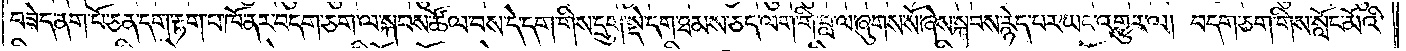བཟེད་ནག་པོ་ཅན་དག་རྟག་པ་ཁོ་ནར་བདག་ཅག་ལ་སྐབས་ཚོལ་བས་དེ་དག་གིས་དྲུག་སྡེ་དག་ཐམས་ཅད་ལག་གི་བླ་ལ་ཞུགས་སོ་ཞེས་སྐབས་རྙེད་པར་ཡང་འགྱུར་ལ། བདག་ཅག་གིས་སློང་མོའི་
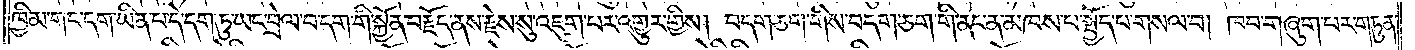ཁྱིམ་གང་དག་ཡིན་པ་དེ་དག་ཏུ་ཡང་བྲེལ་བ་དག་གི་སྐྱོན་བརྗོད་ནས་རྗེས་སུ་འཇུག་པར་འགྱུར་གྱིས། བདག་ཅག་གིས་བདག་ཅག་གི་ནང་ན་མཁས་པ་སྤྱོད་པ་གསལ་བ། ཁབ་གཞུག་པར་གཏུན་
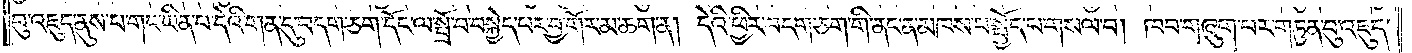བུ་འཇུད་ནུས་པ་གང་ཡིན་པ་དེའི་གན་དུ་བདག་ཅག་དོང་ལ་སྤྲོ་བ་བསྐྱེད་པར་བྱ་གོར་མ་ཆག་ན། དེའི་ཕྱིར་བདག་ཅག་གི་ནང་ན་མཁས་པ་སྤྱོད་པ་གསལ་བ། ཁབ་གཞུག་པར་གཏུན་བུ་འཇུད་
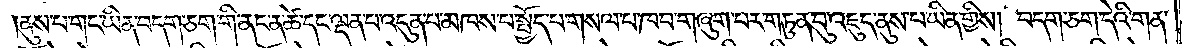ནུས་པ་གང་ཡིན་བདག་ཅག་གི་ནང་ན་ཚེ་དང་ལྡན་པ་འདུན་པ་མཁས་པ་སྤྱོད་པ་གསལ་པ་ཁབ་གཞུག་པར་གཏུན་བུ་འཇུད་ནུས་པ་ཡིན་གྱིས། བདག་ཅག་དེའི་གན་
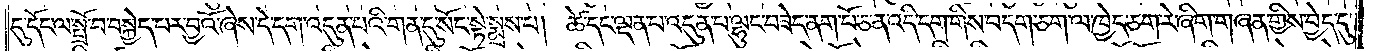དུ་དོང་ལ་སྤྲོ་བ་བསྐྱེད་པར་བྱའོ་ཞེས་དེ་དག་འདུན་པའི་གན་དུ་སོང་སྟེ་སྨྲས་པ། ཚེ་དང་ལྡན་པ་འདུན་པ་ལྷུང་བཟེད་ནག་པོ་ཅན་འདི་དག་གིས་བདག་ཅག་ལ་ཁྱེད་ཅག་རེ་ཞིག་གཞན་གྱིས་བྱེད་དུ་
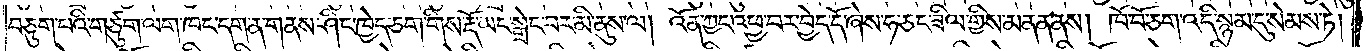བཅུག་པའི་གཙུག་ལག་ཁང་དག་ན་གནས་ཤིང་ཁྱེད་ཅག་གིས་རྡོ་ཡང་སྒྲེང་བར་མི་ནུས་ལ། འོན་ཀྱང་འཕྱ་བར་བྱེད་དོ་ཞེས་ཧ་ཅང་ཟིལ་གྱིས་མནན་ནས། ཁོ་བོ་ཅག་འདི་སྙམ་དུ་སེམས་ཏེ།
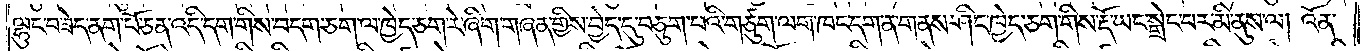ལྷུང་བཟེད་ནག་པོ་ཅན་འདི་དག་གིས་བདག་ཅག་ལ་ཁྱེད་ཅག་རེ་ཞིག་གཞན་གྱིས་བྱེད་དུ་བཅུག་པའི་གཙུག་ལག་ཁང་དག་ན་གནས་ཤིང་ཁྱེད་ཅག་གིས་རྡོ་ཡང་སྒྲེང་བར་མི་ནུས་ལ། འོན་
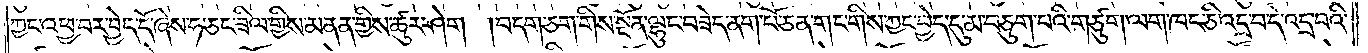ཀྱང་འཕྱ་བར་བྱེད་དོ་ཞེས་ཧ་ཅང་ཟིལ་གྱིས་མནན་གྱིས་ཚུར་ཤེག །བདག་ཅག་གིས་སྔོན་ལྷུང་བཟེད་ནག་པོ་ཅན་གང་གིས་ཀྱང་བྱེད་དུ་མ་བཅུག་པའི་གཙུག་ལག་ཁང་ཅི་འདྲ་བ་དེ་འདྲ་བའི་
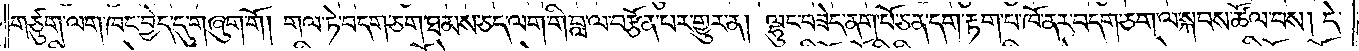གཙུག་ལག་ཁང་བྱེད་དུ་གཞུག་གོ། གལ་ཏེ་བདག་ཅག་ཐམས་ཅད་ལག་གི་བླ་ལ་བརྩོན་པར་གྱུར་ན། ལྷུང་བཟེད་ནག་པོ་ཅན་དག་རྟག་པ་ཁོ་ནར་བདག་ཅག་ལ་སྐབས་ཚོལ་བས། དེ་
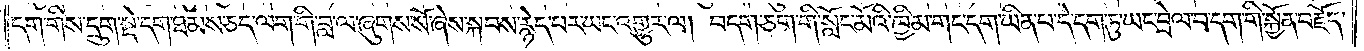དག་གིས་དྲུག་སྡེ་དག་ཐམས་ཅད་ལག་གི་བླ་ལ་ཞུགས་སོ་ཞེས་སྐབས་རྙེད་པར་ཡང་འགྱུར་ལ། བདག་ཅག་གི་སློང་མོའི་ཁྱིམ་གང་དག་ཡིན་པ་དེ་དག་ཏུ་ཡང་བྲེལ་བ་དག་གི་སྐྱོན་བརྗོད་
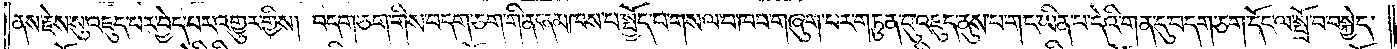ནས་རྗེས་སུ་འཇུད་པར་བྱེད་པར་འགྱུར་གྱིས། བདག་ཅག་གིས་བདག་ཅག་གི་ནང་ན་མཁས་པ་སྤྱོད་པ་གསལ་བ་ཁབ་གཞུག་པར་གཏུན་བུ་འཇུད་ནུས་པ་གང་ཡིན་པ་དེའི་གན་དུ་བདག་ཅག་དོང་ལ་སྤྲོ་བ་བསྐྱེད་
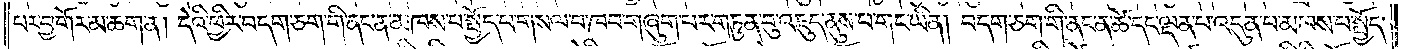པར་བྱ་གོར་མ་ཆག་ན། དེའི་ཕྱིར་བདག་ཅག་གི་ནང་ན་མཁས་པ་སྤྱོད་པ་གསལ་བ་ཁབ་གཞུག་པར་གཏུན་བུ་འཇུད་ནུས་པ་གང་ཡིན། བདག་ཅག་གི་ནང་ན་ཚེ་དང་ལྡན་པ་འདུན་པ་མཁས་པ་སྤྱོད་
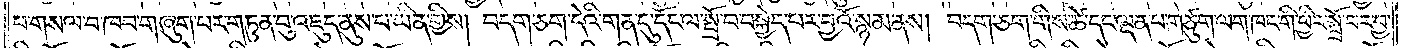པ་གསལ་བ་ཁབ་གཞུག་པར་གཏུན་བུ་འཇུད་ནུས་པ་ཡིན་གྱིས། བདག་ཅག་དེའི་གན་དུ་དོང་ལ་སྤྲོ་བ་བསྐྱེད་པར་བྱའོ་སྙམ་ནས། བདག་ཅག་གིས་ཚེ་དང་ལྡན་པ་གཙུག་ལག་ཁང་གི་ཕྱིར་སྤྲོ་བར་བྱ་
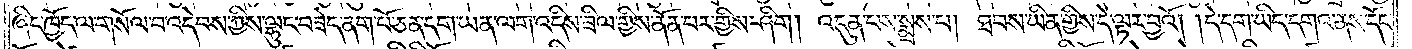ཞིང་ཁྱོད་ལ་གསོལ་བ་འདེབས་ཀྱིས་ལྷུང་བཟེད་ནག་པོ་ཅན་དག་ཡན་ལག་འདིས་ཟིལ་གྱིས་ནོན་པར་གྱིས་ཤིག། འདུན་པས་སྨྲས་པ། ཐབས་ཡིན་གྱིས་དེ་ལྟར་བྱའོ། །དེ་དག་ཡིད་དགའ་ནས་དོང་
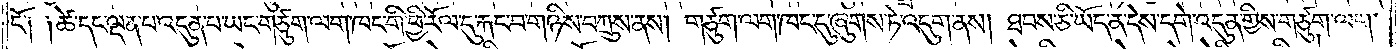ངོ༑ ༑ཚེ་དང་ལྡན་པ་འདུན་པ་ཡང་གཙུག་ལག་ཁང་གི་ཕྱི་རོལ་དུ་རྐང་བ་གཉིས་བཀྲུས་ནས། གཙུག་ལག་ཁང་དུ་ཞུགས་ཏེ་འདུག་ནས། ཐབས་ཅི་ཡོད་ན་དེས་དགེ་འདུན་གྱིས་གཙུག་ལག་
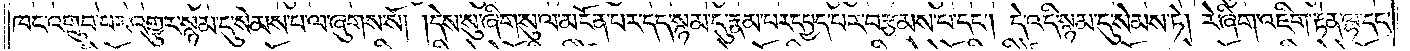ཁང་འགྲུབ་པར་འགྱུར་སྙམ་དུ་སེམས་པ་ལ་ཞུགས་སོ། །དེས་སུ་ཞིག་སུ་ལ་མངོན་པར་དད་སྙམ་དུ་རྣམ་པར་དཔྱད་པར་བརྩམས་པ་དང༌། དེ་འདི་སྙམ་དུ་སེམས་ཏེ། རེ་ཞིག་འཇིག་རྟེན་ལྷ་དང་
